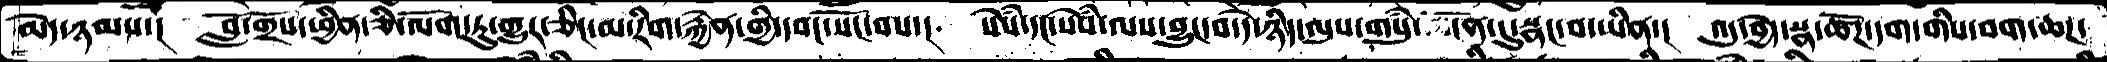མེད་ཉམས་།  བློ་གྲོས་ཕྱིན་ཅི་ལོག་ཏུ་གྱུར་ཅིང་མ་རིག་རྐྱེན་གྱི་དབང་སོང་བས་།  སེཾས་དང་སེཾས་ལས་བྱུང་བ་དེ་ཉིད་ལུས་གསུཾ་མངོན་དུ་སྣང་བ་ཡིན་།  འདུ་བྱེད་སྣ་ཚོཌ་དག་གིས་བག་ཆཌ་
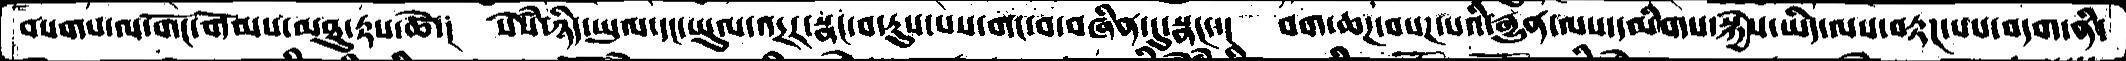བསགས་ལ་གོང་གོམས་མཐུ་རྟས་ཚེ་།  སེཾས་ཉིད་ཡུལ་དང་ཡུལ་འདྲར་སྣང་བ་རུས་པས་གང་བ་བཞིན་དུ་སྣང་་།  བག་ཆཌ་བསཌ་པའི་རྒྱུན་ལས་དམིགས་སྐྱེས་ཡིད་ལས་བརྟཌ་པས་བདག་ནི་
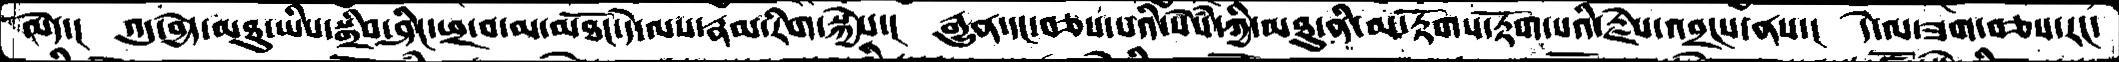མེད་།  འདུ་བྱེད་མཐུ་ཡིས་སྒྲིབ་ཤིང་ཕྲ་བ་མ་མཐོང་དེ་ལས་རྣམ་རིག་སྐྱེས་།  རྒྱུན་དང་བཅས་པའི་སེཾས་ཀྱི་མཐུ་ནི་མ་རྟོགས་རྟོག་པའི་རྗེས་འབྲངས་ནས་།  དེ་ལ་ཟག་བཅས་རང་
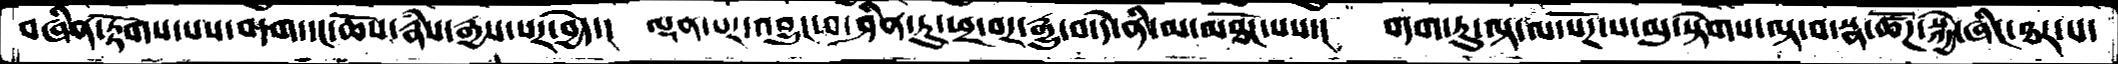བཞིན་རྟོགས་པས་བདག་དང་ཆོས་རྣཾས་རྒྱས་པར་བྱེད་།  ལྡན་པར་འབྱུང་བ་ཤིན་ཏུ་ཕྲ་བར་རྒྱུ་བ་དེ་ནི་མ་མཐོང་པས་།  བདག་ཏུ་ལྟ་ལ་སོཌ་པ་སྟེགས་ལྟ་བ་སྣ་ཚོཌ་སྐྱེ་ཞིང་ཐར་པ་
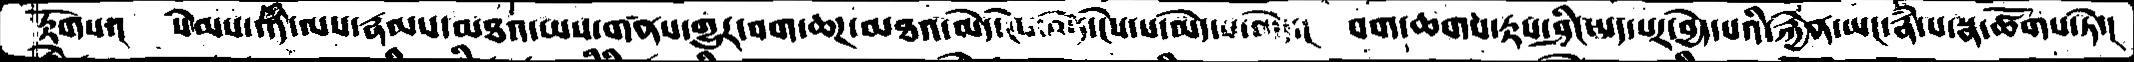རྟོགས་།  སེམས་འདི་ལས་རྣམས་མཐའ་ཡས་གནས་གྱུར་བག་ཆཌ་མཐའ་མེད་ངེས་མེད་ངེས་པ་མེད་པ་མེད་  བག་ཆགས་རྟས་ཤིང་སད་པར་བྱེད་པའི་རྐྱེན་ཡང་རྣཾ་པ་སྣ་ཚོགས་ཏེ་།
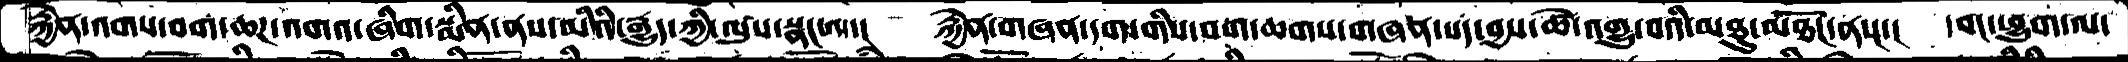རྐྱེན་འགས་བག་ཆཌ་འགའ་ཞིག་སྨིན་ནས་མིའི་རྒྱུད་ཀྱི་ལུས་སྣང་ལ་།  རྐྱེན་གཞན་དག་གིས་བག་ཆགས་གཞན་སད་བྱས་ཚེ་འགྱུ་བའི་མཐུ་མཐོང་ནས་།  དབང་ཕྱུག་ལ་
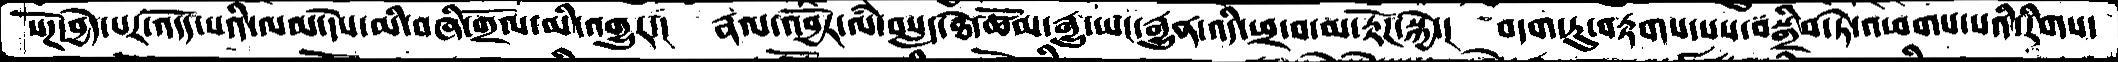སོཌ་བྱེད་པར་འདོད་པའི་ལམ་དེས་མི་བཞི་གྲོལ་མི་འགྱུར་།  རྣལ་འབྱོར་ལཾ་བསླད་ཐེ་ཚོམ་རྒྱུ་ཡང་རྒྱུན་འདི་ཕྲ་བ་མ་རྟོཌ་སྐྱེ་།  བདག་ཏུ་བརྟགས་པས་བསྒྲིབ་ཏེ་འཕགས་པའི་རིགས་
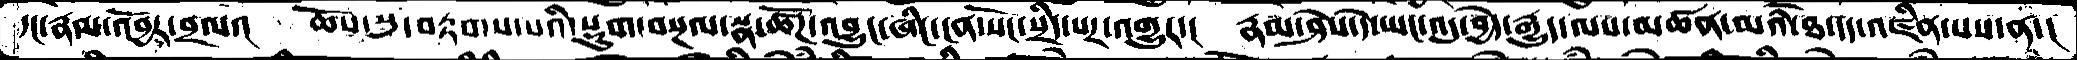དང་རྣལ་འབྱོར་བྲལ་།  ཆོས་སུ་བརྟགས་པའི་སྡུག་བསྔལ་སྣ་ཚོཌ་འབྱུང་ཞིང་ངན་སོང་སྲིད་པར་འགྱུར་།  རྣམ་ཤེས་དེ་ཡང་འདུ་བྱེད་རྒྱུད་ལས་མཚན་མའི་ཐ་དད་འཛིན་པས་ན་།
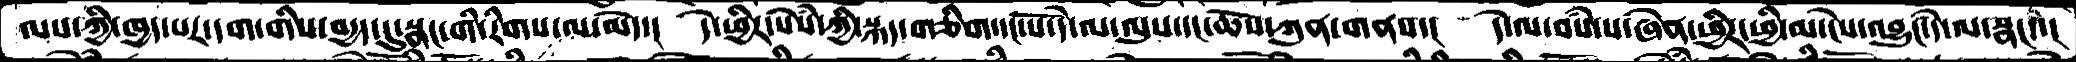ལས་ཀྱི་ཁྱད་པར་དག་གིས་བདྱད་དུ་སྣང་གི་རིགས་ལ་མེད་།  དེ་ཕྱིར་སེཾས་ཀྱི་སྐད་གཅིག་དང་པོ་དེ་ལ་ལུས་དང་ཆོས་ཀུན་གནས་།  དེ་ལ་བསཾ་པ་ཞེན་ཕྱིར་ཕྱི་མ་ངེས་འབྱུང་དེ་ལ་སྣང་་།
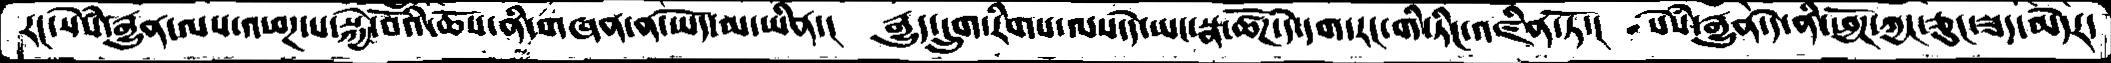རང་སེཾས་རྒྱུན་ལས་འཕཌ་པ་སྐྱེ་བོའི་ཆོས་ནི་གཞན་ན་ཡོད་མ་ཡིན་།  རྒྱུད་དྲུག་རིགས་ལས་དེ་ཡང་སྣ་ཚོཌ་དེ་དག་རང་གི་ཏིང་འཛིན་ཏོ་།  སེཾས་རྒྱུན་དེ་ནི་ཕྱོཌ་ཀྱང་ཅུང་ཟད་མེདར་
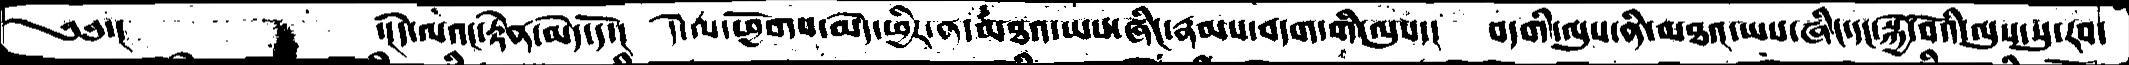༄༅་།   ་།དེ་ལའང་རྟེན་མེད་དོ་།  དེ་ལ་ཕྱོགས་མེད་ཕྱིར་ན་མཐའ་ཡས་ཞིང་རྣམས་བདག་གི་ལུས་།  བདགི་ལུས་ནི་མཐའ་ཡས་ཞིང་དང་སྐྱེ་བོའི་ལུས་སུ་རབ་
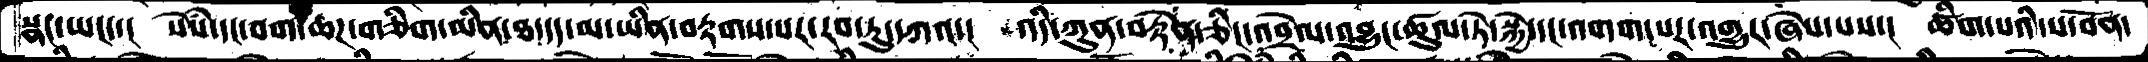སྣང་ཡང་།  སེཾས་དང་བག་ཆཌ་གཅིག་མིན་ཐ་དད་མ་ཡིན་བརྟགས་པར་རབ་ཏུ་དཀའ་།  འདི་ཀུན་བརྟེན་ཅིང་འབྲེལ་འབྱུང་ཚུལ་ཏེ་སྐྱེ་དང་འགག་པར་འགྱུར་ཞེས་པས་།  ཚིག་པའི་ས་བོན་
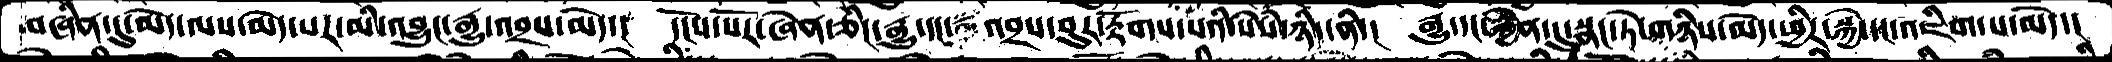བཞིན་དུ་མེད་ལས་མེད་པར་མི་འབྱུང་རྒྱུ་འབྲས་མེད་།  དངོས་པརོ་ཞེན་ཅིང་རྒྱུ་དང་   འབྲས་བུར་རྟོགས་པའི་སེཾས་ཉིད་ནི་།  རྒྱུ་དང་རྐྱེན་དུ་སྣང་ཏེ་གཉིས་མེད་ཕྱིར་སྐྱེ་དང་འཇིག་པ་མེད་།
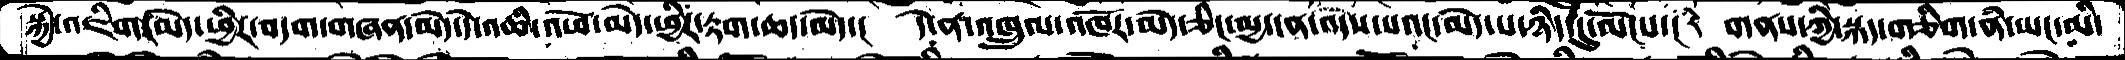སྐྱེ་འཇིག་མེད་ཕྱིར་བདག་གཞན་མེད་དེ་འཆི་འཕོ་མེད་ཕྱིར་རྟག་ཆད་མེད་།  དེ་ན་འཁྲུལ་འཁོར་མེད་ཅིང་མྱ་ངན་འདས་པའང་མེད་པ་ཉིད་དུ་ལོངས་། རེ གནས་ཀྱི་སྐད་གཅིག་ནི་ཡང་མི་
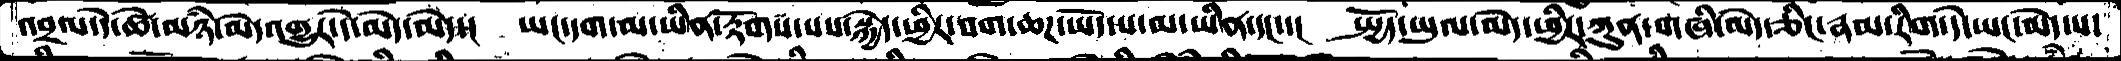འབྲལ་དེ་ཚེ་མཉཾ་མེད་འགྱུར་དེ་མེད་མེད་།  ཡང་དག་མ་ཡིན་རྟོགས་པས་སྐྱེད་ཕྱིར་བག་ཆཌ་ཡོད་པ་མ་ཡིན་དང་།  སྤྱོད་ཡུལ་མེད་ཕྱིར་ཀུན་གཞི་མེད་ཅིང་རྣམ་རིག་དེ་ཡང་མེད་པ་
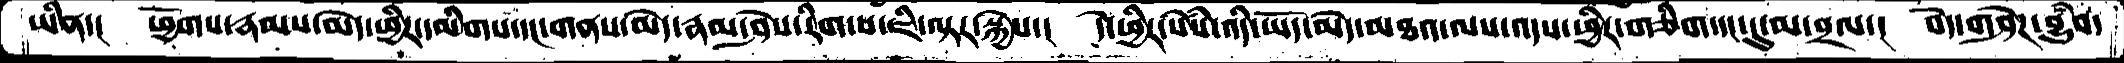ཡིན་།  ཕྱོགས་རྣམས་མེད་ཕྱིར་དམིགས་དང་གནས་མེད་རྣམ་ཤེས་རིག་པ་ཇི་ལྟར་སྐྱེས་།།  དེ་ཕྱིར་སེཾས་འདི་ཡོད་མེད་མཐའ་ལས་འདས་ཕྱིར་གཅིག་དང་དུ་མ་བྲལ་།  བདེ་གཤེཌ་བྱུྃབ་
